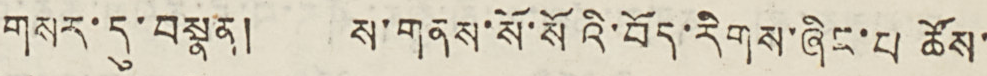གསར་དུ་བསྣན། ས་གནས་སོ་སོའི་བོད་རིགས་ཞིང་པ ཚོས་
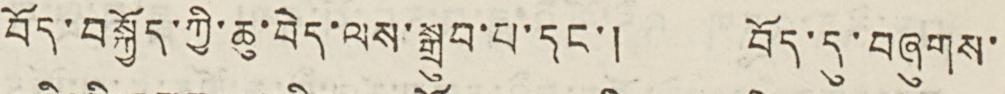བོད་བསྐྱོད་ཀྱི་ཆུ་བེད་ལས་སྒྲུབ་པ་དང་། བོད་དུ་བཞུགས་
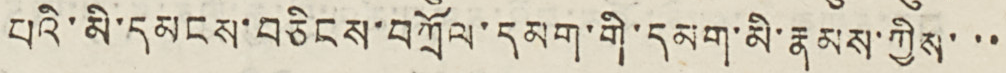པའི་མི་དམངས་བཅིངས་བཀྲོལ་དམག་གི་དམག་མི་རྣམས་ཀྱིས་་་
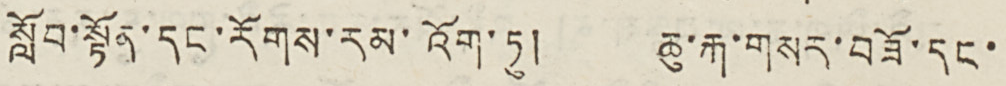སློབ་སྟོན་དང་རོགས་རམ་འོག་ཏུ། ཆུ་རྐ་གསར་བཟོ་དང་
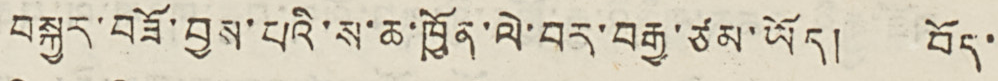བསྐྱར་བཟོ་བྱས་པའི་ས་ཆ་ཁྱོན་ལེ་བར་བརྒྱ་ཙམ་ཡོད། བོད་
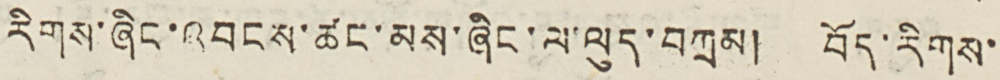རིགས་ཞིང་འབངས་ཚང་མས་ཞིང་ལ་ལུད་བཀྲམ། བོད་རིགས་
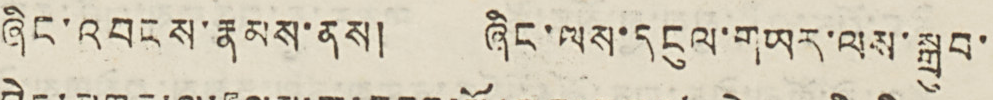ཞིང་འབངས་རྣམས་ནས། ཞིང་ལས་དངུལ་གཡར་ལས་སྒྲུབ་
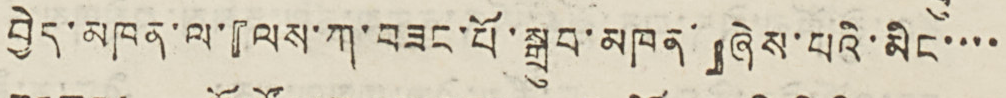བྱེད་མཁན་ལ་『ལས་ཀ་བཟང་པོ་སྒྲུབ་མཁན་』ཞེས་པའི་མིང་་་་
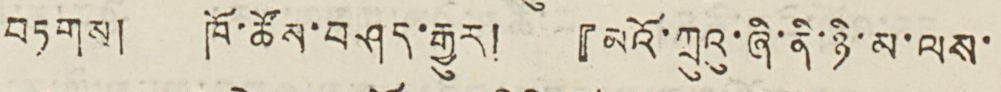བཏགས། ཁོ་ཚོས་བཤད་རྒྱུར། 『མའོ་ཀྲུའུ་ཞི་ནི་ཉི་མ་ལས་
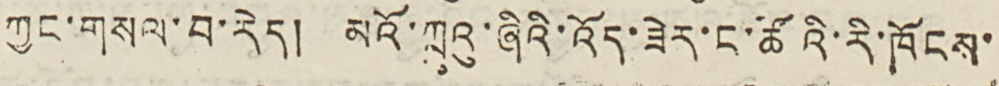ཀྱང་གསལ་བ་རེད། མའོ་ཀྲུའུ་ཞིའི་འོད་ཟེར་ང་ཚོའི་རི་ཁོངས་
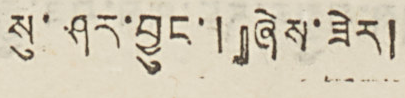སུ་ཤར་བྱུང་།』ཞེས་ཟེར།
